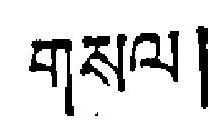གསལ།
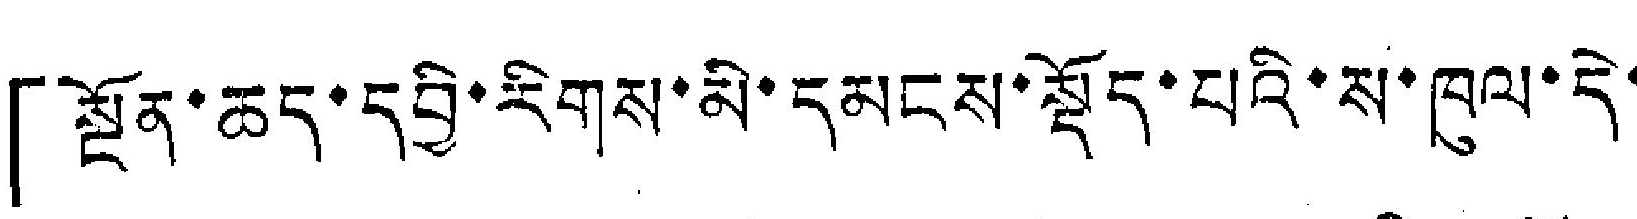「སྔོན་ཆད་དབྱི་རིགས་མི་དམངས་སྡོད་པའི་ས་ཁུལ་དེ་
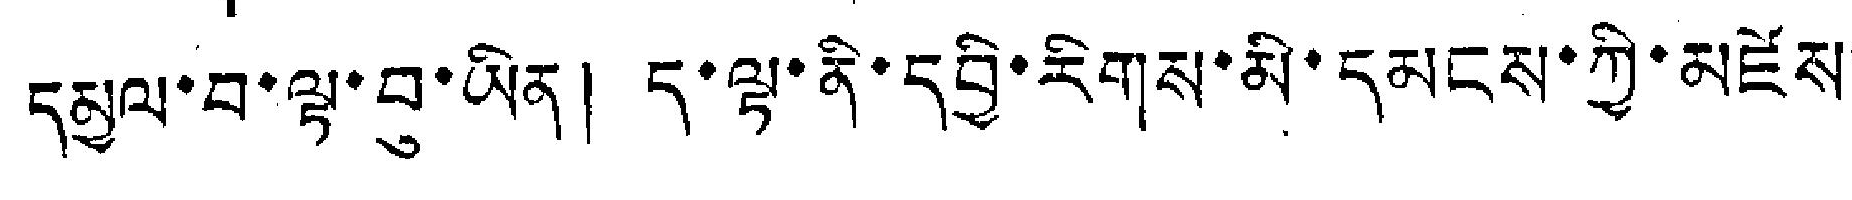དམྱལ་བ་ལྟ་བུ་ཡིན། ད་ལྟ་ནི་དབྱི་རིགས་མི་དམངས་ཀྱི་མཛེས་
